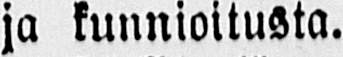ja kunnioitusta.
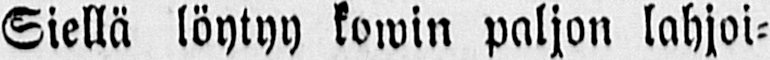Siellä löytyy kowin paljon lahjoi-
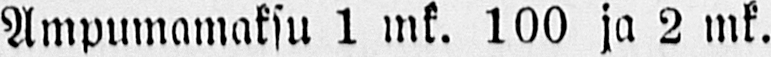Ampumamaksu 1 mk. 100 ja 2 mk.
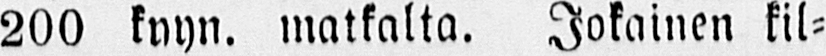200 kyyn. matkalta. Jokainen kil-
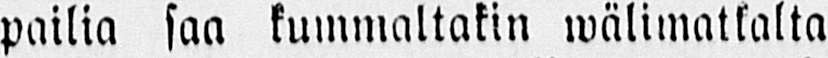pailia saa kummaltakin wälimatkalta
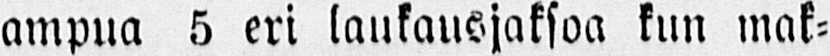ampua 5 eri laukausjaksoa kun mak-
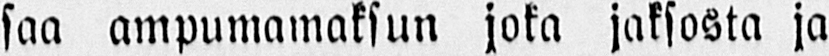saa ampumamaksun joka jaksosta ja
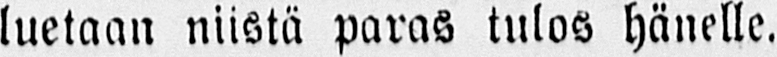luetaan niistä paras tulos hänelle.
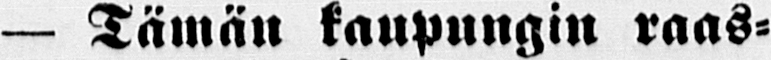— Tämän kaupungin raas-
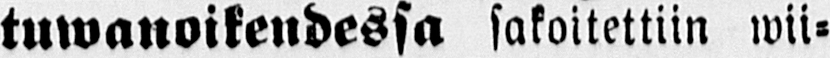tuwanoikendessa sakoitettiin wii-
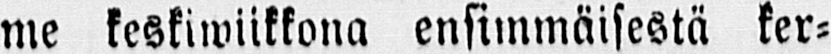me keskiwiikkona ensimmäisestä ker-
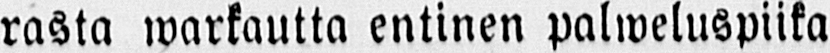rasta warkautta entinen palweluspiika
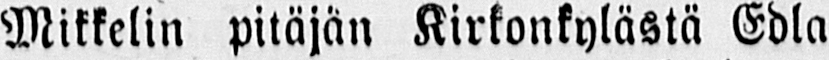Mikkelin pitäjän Kirkonkylästä Edla
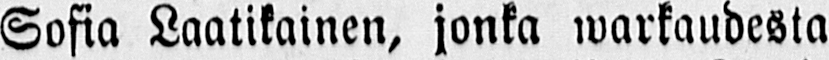Sofia Laatikainen, jonka warkaudesta
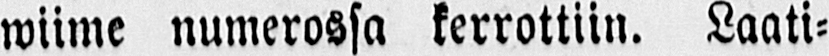wiime numerossa kerrottiin. Laati-
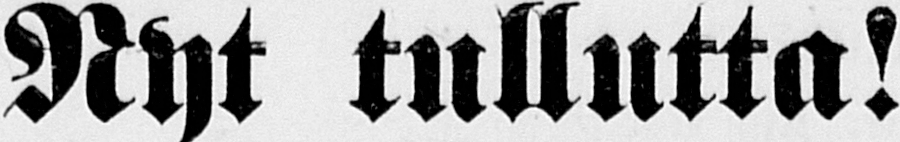Nyt tullutta!
